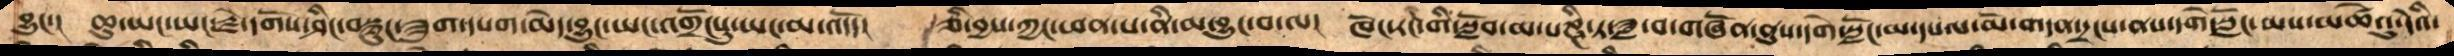བྱུང་།  ཆུ་ཡང་ཡང་བརྗེ་དགོས་ཤིང་བསྙུང་ཟུག་དཔག་མེད་བྱུང་ཡང་འགྲོངསུ་ཡང་མ་འདོད།  ཅི་བྱས་ཀྱང་ཕན་པ་ནི་མ་བྱུང་བ་ལ།  ཁོང་རང་གི་སློབ་མ་པཎྚི་ཏ་ཟླ་བ་གཞོན་ནུས་དགེ་སློང་མ་དཔལ་མོ་གདན་དྲངས་ནས་དགེ་སློང་མས་མཚེའུ་དེའི་
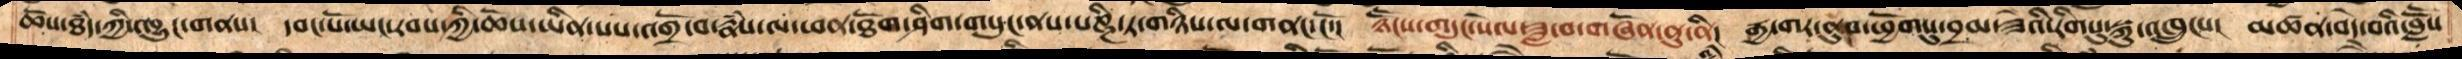ཆོས་ཐཾད་ཀྱི་འབྱུང་གནས།  དབང་པོ་ཡང་རབས་ཀྱི་ཆོས་ཡིན་པས་འགྲོ་བ་རྣཾས་ལ་ཕན་ཐོག་ཤིག་གསུང་ནས་པཎྚི་ཏ་གཉིས་ལ་གནང་ངོ་།  ཉཽངས་གདུང་སེལ་ཟླ་བ་གཞོན་ནུ་ནི།  དྱ་གར་ནུབ་ཕྱོགསུ་བྲམ་ཟེའི་རིགསུ་སྐུ་འཁྲུངས།  མཚན་བདེ་བའི་བླཽས་
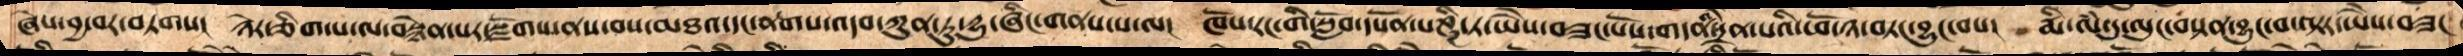ཞེས་བྱ་བར་བཏགས།  ཉེར་ཅིག་པ་ལ་བསྙེན་པར་སྫོགས་ནས་བས་མཐའ་དང་ནགས་འདབ་ཀུན་ཏུ་དྱུ་ཞིང་གནས་པ་ལས།  ཁོས་རང་གི་སློབ་དཔོན་པཎྚི་ཏ་ཡཻས་བཟང་པོས་གདན་དྲེན་པའི་ཕོ་ཉ་བཏང་བྱུང་བས།  རྨི་ལཾ་དུ་ལུང་བསྟན་བྱུང་བ་ལྟར་ཡཻས་བཟང་
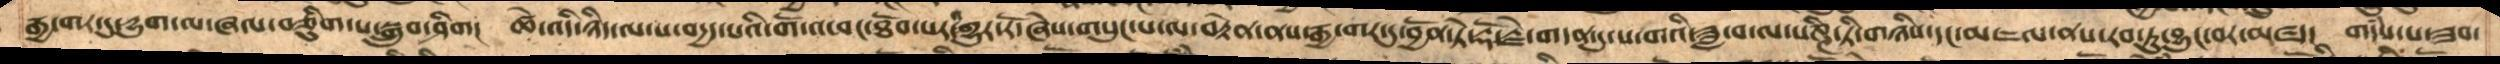རྒྱ་གར་དུ་དྱུག་ལ་ཞལ་བཅིུག་པ་སྒྲུབ་ཤིག། ཚེ་འདི་ཉིད་ལ་ས་བདྱད་པའི་གོ་འཕང་ཐོབ་པར་འགྱུར་རོ་ཞེས་གསུང་པ་ལ་བརྟེན་ནས་རྒྱ་གར་དུ་བྱོན་ཏེ་རྡོ་རྗེ་གདན་དུ་ས་གའི་ཟླ་བ་ལ་པཎྚི་ཏི་གཉིས་དང་མཇལ་ནས་རབ་ཏུ་བྱུང་བར་མཛད།  གདཾས་པ་ཟབ་
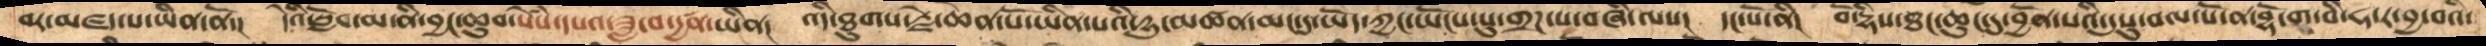བར་མཛད་པ་ཡིན་ནོ་།  དེའི་སློབ་མ་ནི་བྱང་ཆུབ་སེཾས་དཔའ་ཟླ་བ་དྱཚན་ཡིན།   འདི་ཐུགས་རྗེ་ཆེན་པོ་ཡིན་པའི་དྱུ་མཚན་མང་དུ་ཡོད་ཀྱང་ཡོངས་སུ་གྲཌ་པ་བཞི་ལས།  དང་པོ་ནི།  བོ་དྷིས་ཐང་ཆུང་དུ་བྱོན་པའི་དུསུ་བལ་པོ་ན་བྷོ་ག་བི་ཧ་ར་བྱ་བའི་
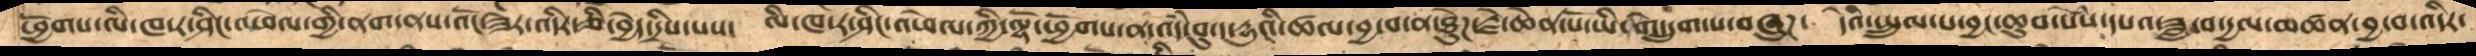ཕྱོགས་ལི་ཁ་ར་ཤིང་འ་ཕེལ་གྱི་ནག་ནས་འོང་ཟེར་འདིར་ཅི་བྱེད་དྲིས་པས་ ལི་ཁ་ར་ཤིང་འཕེལ་གྱི་ལྷོ་ཕྱོགས་ན་འདཾ་བུ་ད་དྱུ༤ི་ཚལ་བྱ་བ་ན་ཐེུཌ་རྗེ་ཆེན་པོ་ཡི་གེ་དྲུག་པ་བཞུཌ་  དེའི་སྤྲུལ་པ་བྱང་ཆུབ་སེཾས་དཔའ་ཟླ་བ་དྱལ་མཚན་བྱ་བ་འདིར་
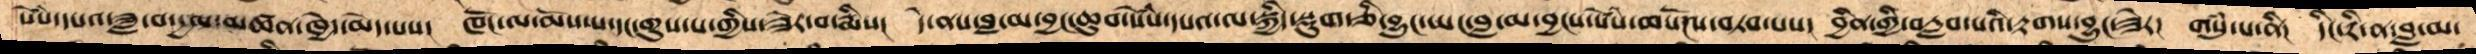སེཾས་དཔའ་ཟླ་བ་དྱལ་མཚན་ཁྱེད་མེད་པས།  ཁོང་ལ་མོས་པ་དང་གུས་པ་གྱིས་ཟེར་བ་རྨིས། དེ་ནས་བླ་མ་བྱང་ཆུབ་སེཾས་དཔའ་ལ་སྐྱིད་སྡུག་ཅི་བྱུང་ཡང་བླ་མ་བྱང་སེཾས་གསོལ་བཏབ་པས། བྱིན་གྱི་བརླབ་པའི་རྟགས་བྱུང་ཟེར།  གསུཾ་པ་ནི། དིང་རི་ན་བླ་མ་
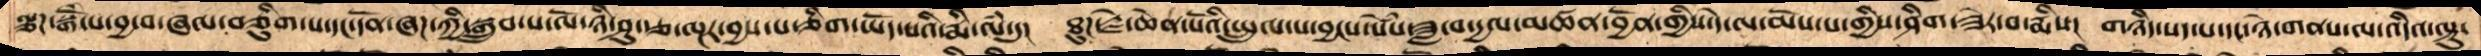ལྕཌ་སྒོཾ་པ་བྱ་བ་ཞལ་བཅིུག་པ་དང་དོན་ཞཌ་ཀྱི་སྒྲུབ་པ་ལོ་ཉི་ཤུ་རྩ་ལྔར་བྱས་པ་ཅིག་ཡོད་པའི་རྨི་ལཾ་དུ།  ཐུཌ་རྗེ་ཆེན་པོའི་སྤྲུལ་པ་བྱངས་སེསཾ་ཟླ་བ་དྱལ་མཚན་བྱོན་གྱིས་དེ་ལ་མོས་པ་གྱིས་ཤིག་ཟེར་བ་རྨིས།  གཉིད་སད་པ་དང་ཉེ་གནས་ལ་འདིའ་ལྟུ་
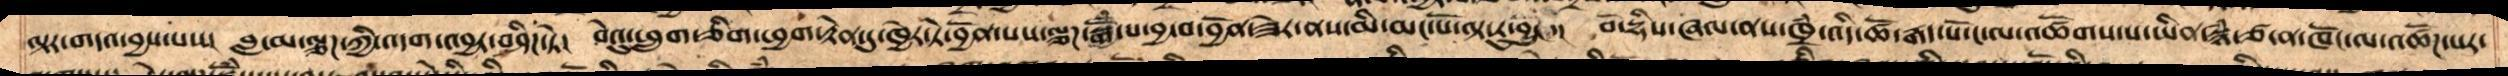ལྟར་གདའ་བྱས་པས།  བླ་མ་ལྕཌ་ཀྱི་འདག་འབྱར་བཤིཌ་ཏེ།  བེའུ་ཕྲུག་ཅིག་ཕྱག་རྟེན་དུ་ཁྱེར་ཏེ་བྱོན་པས་ལྕཌ་སྒོཾ་པ་བྱ་བ་བྱོན་ཟེར་ནས་མི་མང་པོ་ལྟ་རུ་བྱུང་།  བོ་དྷིས་ཞལ་ནས་ཁྲཾ་འདི་ཚོ་རྒད་པོ་ང་ལ་འཚོགས་པ་ཡིན་སྙཾ་ཙ་ན་ཁོང་ལ་འཚོཌ་པར་
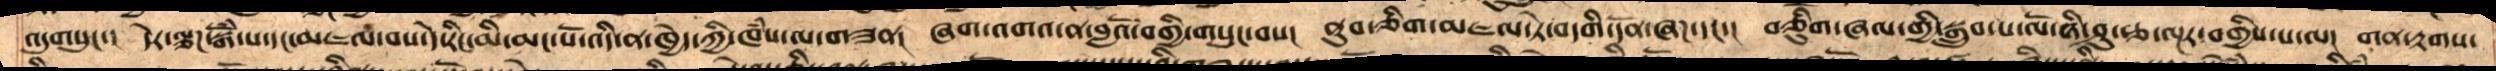འདུགསུང།  དེར་ལྕཌ་སྒོཾ་པ་དང་མཇལ་བས་དེ་རིང་མི་མང་པོ་འདི་ན་ཁྱེད་ཀྱི་ཁཾས་ལ་གཟན།  ཞག་འགའ་ན་བླའོ་བགྱི་གསུང་བས།  ནུབ་ཅིག་མཇལ་ཏེ་བདགི་དོན་ཞཌ་དང་།  བཅིུག་ཞལ་གྱི་སྒྲུབ་པ་ལོ་ཉི་ཤུ་རྩ་ལྔར་བགྱིས་པ་ལ།  གན་རྟགས་
